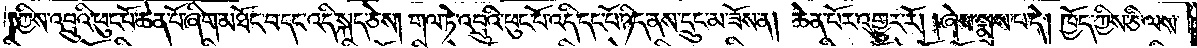ཀྱིས་འབྲུའི་ཕུང་པོ་ཆེན་པོ་ཞིག་མཐོང་བ་དང་འདི་སྐད་ཅེས། གལ་ཏེ་འབྲུའི་ཕུང་པོ་འདི་དང་པོ་ཉིད་ནས་དྲུང་མ་ཟོས་ན། ཆེན་པོར་འགྱུར་རོ། །ཞེས་སྨྲས་པ་དེ། ཁྱོད་ཀྱིས་ཅི་ལས་
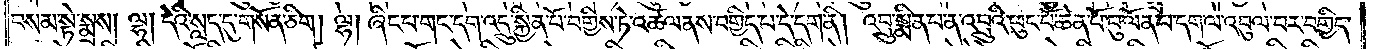བསམ་སྟེ་སྨྲས། ལྷ། དེའི་སླད་དུ་གསོན་ཅིག །ལྷ། ཞིང་པ་གང་དག་འདྲུ་སྐྱིན་པོ་བགྱིས་ཏེ་འཚལ་ནས་བགྱིད་པ་དེ་དག་ནི། འབྲུ་སྨིན་པ་ན་འབྲུའི་ཕུང་པོ་ཆེན་པོ་བུ་ལོན་པ་དག་ལ་འབུལ་བར་བགྱིད་
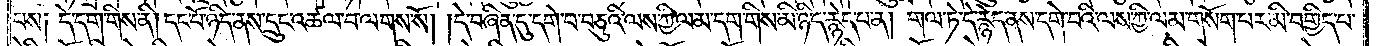པས༏ དེ་དག་གིས་ནི། དང་པོ་ཉིད་ནས་དྲུང་འཚལ་བ་ལགས་སོ། །དེ་བཞིན་དུ་དགེ་བ་བཅུའི་ལས་ཀྱི་ལམ་དག་གིས་མི་ཉིད་རྙེད་པ་ན། གལ་ཏེ་དེ་རྙེད་ནས་དགེ་བའི་ལས་ཀྱི་ལམ་གསོག་པར་མི་བགྱིད་པ་
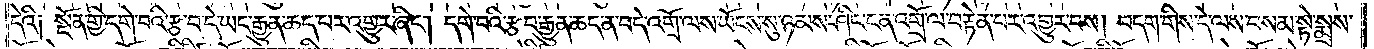དེའི། སྔོན་གྱི་དགེ་བའི་རྩ་བ་དེ་ཡང་རྒྱུན་ཆད་པར་འགྱུར་ཞིང༌། དགེ་བའི་རྩ་བ་རྒྱུན་ཆད་ན་བདེ་འགྲོ་ལས་ཡོངས་སུ་ཉམས་ཤིང་ངན་འགྲོ་ལ་བརྟེན་པར་འགྱུར་བས། བདག་གིས་དེ་ལས་བསམ་སྟེ་སྨྲས་
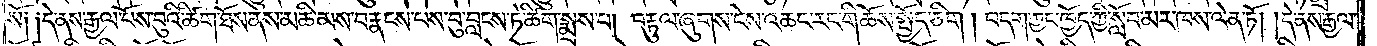སོ༑༑ དེ་ནས་རྒྱལ་པོས་བུའི་ཚིག་ཐོས་ནས་མཆི་མས་བརྣངས་པས་བུ་བླངས་ཏེ་ཚིག་སྨྲས་པ། བརྟུལ་ཞུགས་ངེས་འཆང་རང་གི་ཆོས་སྤྱོད་ཅིག །བདག་ཀྱང་ཁྱོད་ཀྱི་སློབ་མར་ཁས་ལེན་ཏོ། །དེ་ནས་རྒྱལ་
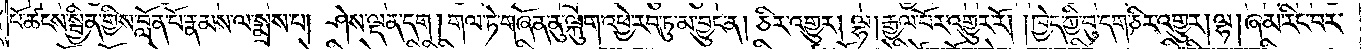པོ་ཚངས་སྦྱིན་གྱིས་བློན་པོ་རྣམས་ལ་སྨྲས་པ། ཤེས་ལྡན་དག །གལ་ཏེ་གཞོན་ནུ་ལྐུག་འཕྱེ་རབ་ཏུ་མ་བྱུང་ན། ཅིར་འགྱུར། ལྷ། རྒྱལ་པོར་འགྱུར་རོ། །ཁྱེད་ཀྱི་བུ་དག་ཅིར་འགྱུར། ལྷ། ཞམ་རིང་བར་
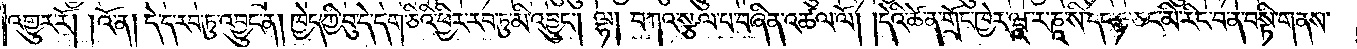འགྱུར་རོ། །འོ་ན། དེ་ད་རབ་ཏུ་འབྱུང་ན། ཁྱེད་ཀྱི་བུ་དེ་དག་ཅིའི་ཕྱིར་རབ་ཏུ་མི་འབྱུང༌། ལྷ། བཀའ་སྩལ་པ་བཞིན་འཚལ་ལོ། །དེའི་ཚེ་ན་གྲོང་ཁྱེར་ཝཱ་ར་ཎཱ་སི་དང་ཧ་ཅང་མི་རིང་བ་ན་བསྟི་གནས་
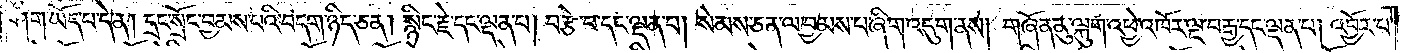ཤིག་ཡོད་པ་དེ་ན། དྲང་སྲོང་བྱམས་པའི་བདག་ཉིད་ཅན། སྙིང་རྗེ་དང་ལྡན་པ། བརྩེ་བ་དང་ལྡན་པ། སེམས་ཅན་ལ་བྱམས་པ་ཞིག་འདུག་ནས། གཞོན་ནུ་ལྐུག་འཕྱེ་འཁོར་ལྔ་བརྒྱ་དང་ལྡན་པ། འབྱོར་པ་
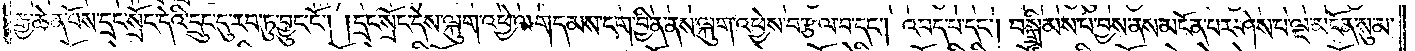རྒྱ་ཆེན་པོས་དྲང་སྲོང་དེའི་དྲུང་དུ་རབ་ཏུ་བྱུང་ངོ༌། །དྲང་སྲོང་དེས་ལྐུག་འཕྱེ་ལ་གདམས་ངག་བྱིན་ནས་ལྐུག་འཕྱེས་བརྩལ་བ་དང༌། འབད་པ་དང༌། བསྒྲིམས་པ་བྱས་ནས་མངོན་པར་ཤེས་པ་ལྔ་མངོན་སུམ་
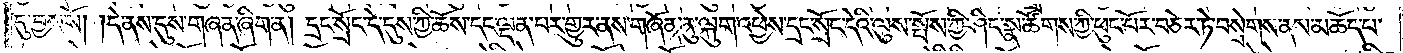དུ་བྱས་སོ། །དེ་ནས་དུས་གཞན་ཞིག་ན། དྲང་སྲོང་དེ་དུས་ཀྱི་ཆོས་དང་ལྡན་པར་གྱུར་ནས་གཞོན་ནུ་ལྐུག་འཕྱེས་དྲང་སྲོང་དེའི་ལུས་སྤོས་ཀྱི་ཤིང་སྣ་ཚོགས་ཀྱི་ཕུང་པོར་བཅེར་ཏེ་བསྲེགས་ནས་མཆོད་པ་
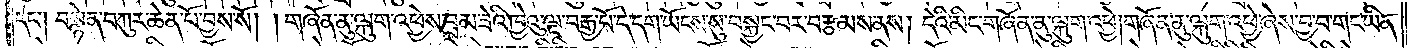དང༌། བསྙེན་བཀུར་ཆེན་པོ་བྱས་སོ། །གཞོན་ནུ་ལྐུག་འཕྱེས་བྲམ་ཟེའི་ཁྱེའུ་ལྔ་བརྒྱ་པོ་དེ་དག་ཡོངས་སུ་བསྐྱང་བར་བརྩམས་ནས། དེའི་མིང་གཞོན་ནུ་ལྐུག་འཕྱེ། གཞོན་ནུ་ལྐུག་འཕྱེ་ཞེས་བྱ་བ་གང་ཡིན་
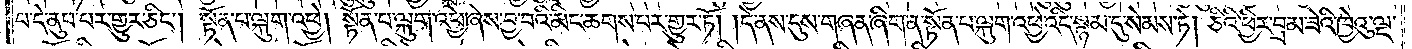པ་དེ་ནུབ་པར་གྱུར་ཅིང༌། སྟོན་པ་ལྐུག་འཕྱེ། སྟོན་པ་ལྐུག་འཕྱེ་ཞེས་བྱ་བའི་མིང་ཆགས་པར་གྱུར་ཏོ། །དེ་ནས་དུས་གཞན་ཞིག་ན་སྟོན་པ་ལྐུག་འཕྱེ་འདི་སྙམ་དུ་སེམས་ཏེ། ཅིའི་ཕྱིར་བྲམ་ཟེའི་ཁྱེའུ་ལྔ་
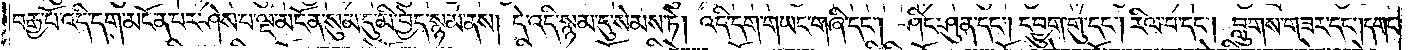བརྒྱ་པོ་འདི་དག་མངོན་པར་ཤེས་པ་ལྔ་མངོན་སུམ་དུ་མི་བྱེད་སྙམ་ནས། དེ་འདི་སྙམ་དུ་སེམས་ཏེ། འདི་དག་གཡང་གཞི་དང༌། ཤིང་ཤུན་དང༌། དབྱུག་གུ་དང༌། རིལ་བ་དང༌། བླུགས་གཟར་བ་དང༌། དགང་
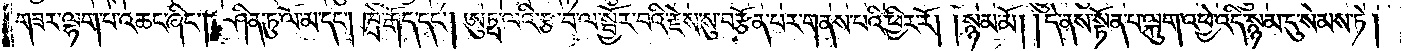གཟར་ལྷག་པ་འཆང་ཞིང༌། ཤིན་ཏུ་ལོ་མ་དང༌། ཁྲེ་རྒོད་དང༌། ཨུཏྤ་ལའི་རྩ་བ་ལ་སྦྱོར་བའི་རྗེས་སུ་བརྩོན་པར་གནས་པའི་ཕྱིར་རོ། །སྙམ་མོ། །དེ་ནས་སྟོན་པ་ལྐུག་འཕྱེ་འདི་སྙམ་དུ་སེམས་ཏེ།
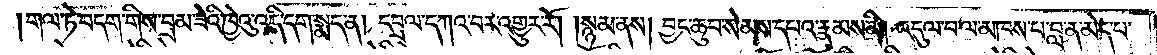གལ་ཏེ་བདག་གིས་བྲམ་ཟེའི་ཁྱེའུ་འདི་དག་སྨད་ན། དབྲལ་དཀའ་བར་འགྱུར་རོ། །སྙམ་ནས། བྱང་ཆུབ་སེམས་དཔའ་རྣམས་ནི། འདུལ་བ་ལ་མཁས་པ་བླ་ན་མེད་པ་
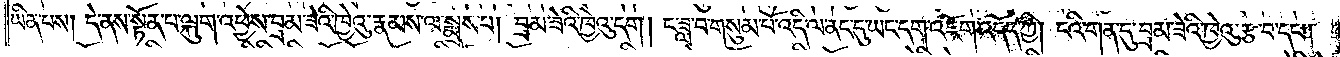ཡིན་པས། དེ་ནས་སྟོན་པ་ལྐུག་འཕྱེས་བྲམ་ཟེའི་ཁྱེའུ་རྣམས་ལ་སྨྲས་པ། བྲམ་ཟེའི་ཁྱེའུ་དག། ང་ཟླ་བ་གསུམ་པོ་འདི་ལ་ནང་དུ་ཡང་དག་འཇོག་འདོད་ཀྱི། ངའི་གན་དུ་བྲམ་ཟེའི་ཁྱེའུ་རྩ་བ་དང༌།
